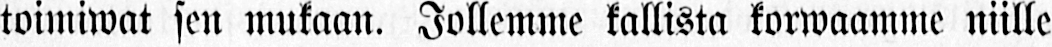toimiwat sen mukaan. Jollemme kallista korwaamme niille
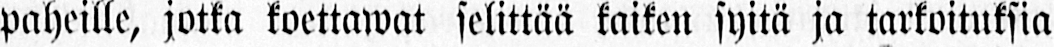paheille, jotka koettawat selittää kaiken syitä ja tarkoituksia
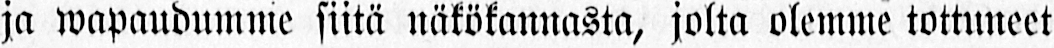ja wapaudumme siitä näkökannasta, jolta olemme tottuneet
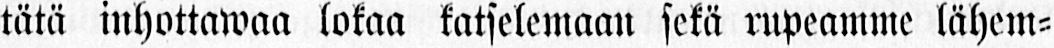tätä inhottawaa lokaa katselemaan sekä rupeamme lähem-
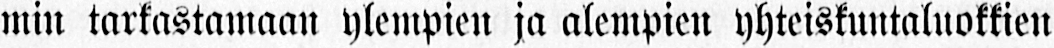min tarkastamaan ylempien ja alempien yhteiskuntaluokkien
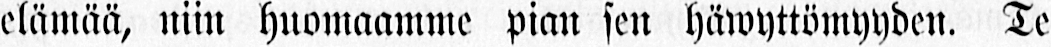elämää, niin huomaamme pian sen häwyttömyyden. Te
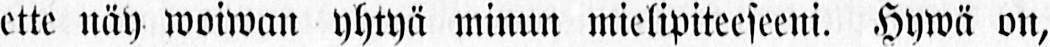ette näy woiwan yhtyä minun mielipiteeseeni. Hywä on,
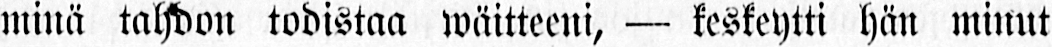minä tahdon todistaa wäitteeni, — keskeytti hän minut
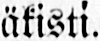äkisti.
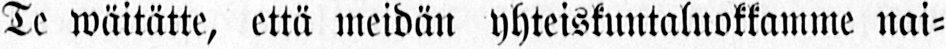Te wäitätte, että meidän yhteiskuntaluokkamme nai-
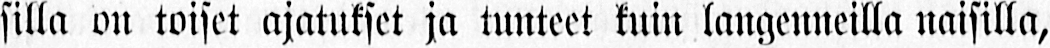silla on toiset ajatukset ja tunteet kuin langenneilla naisilla,
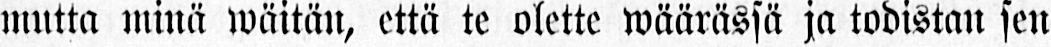mutta minä wäitän, että te olette wäärässä ja todistan sen
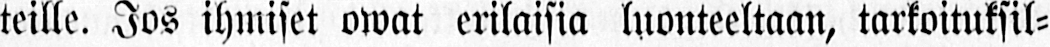teille. Jos ihmiset owat erilaisia luonteeltaan, tarkoituksil-
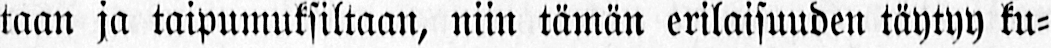taan ja taipumuksiltaan, niin tämän erilaisuuden täytyy ku-
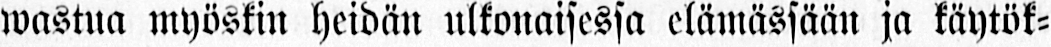wastua myöskin heidän ulkonaisessa elämässään ja käytök-
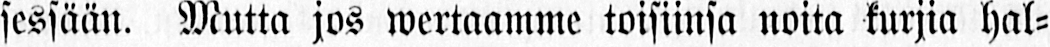sessään. Mutta jos wertaamme toisiinsa noita kurjia hal-
